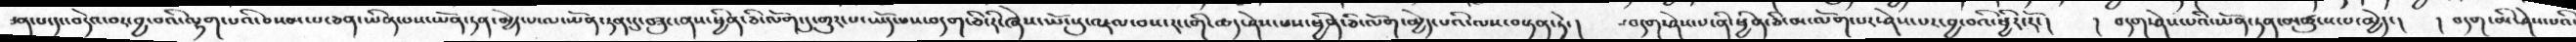ཅན་པ་དང་བདེའ་བར་བྱ་བའི་ལྷག་པའི་སེམས་ཅན་ཡིན་པས་ཡོན་ཏན་མྱེད་པ་ལ་ཡོན་ཏན་དུ་བཟུང་ནས་ཕྱིན་ཅི་ལོག་དུ་གྱུར་པ་ཡོད་པས་བདག་ཅི་རི་ཞེས་ཡོངསུ་འཇལ་བས་རང་གི་ཚད་ཤེས་པས་ཕྱིན་ཅི་ལོག་མྱེད་པའི་ལས་བསྟན་ཏེ་།  བདག་ཤེས་པ་ནི་ཕྱིན་ཅི་ལོག་པར་ཤེས་པར་བྱ་བའི་ཕྱིར་རོ་།   །བདག་ཤེས་པའི་ཡོན་ཏན་མཚུངས་པ་མྱེད་།   ། བདག་མི་ཤེས་པའི་
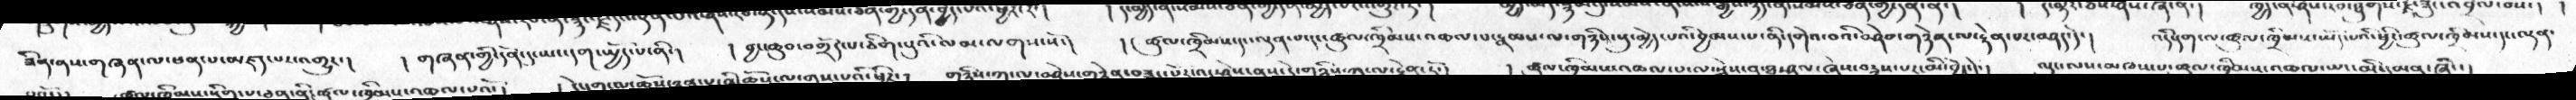ཟིན་ནས་གཞན་ལ་ཕན་པ་མཛད་པར་འགྱུར་།  །གཞན་གྱི་དོན་དུ་ཡང་དག་སྤྱོད་པ་ནི་།   །བྱང་ཆུབ་བགྲོད་པའི་ཅིག་པུའི་ལམ་ལགས་སོ་།  །ཚུལ་ཁྲིམས་དང་ལྡན་པ་དང་ཚུལ་ཁྲིམས་འཆལ་པ་རྣམས་ལ་གཉིས་སུ་མྱེད་པའི་བྱམས་པ་ནི་དགེའ་བའི་བཤེན་གཉེན་ལ་རྟེན་པར་བཤད་དེ་།  འདི་དག་ལ་ཚུལ་ཁྲིམས་ཡོད་པའི་ཕྱིར་ཚུལ་ཁྲིམས་དང་ལྡན་
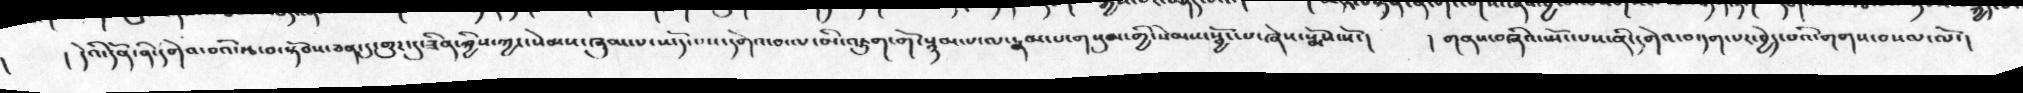།    །དེའི་དོན་ནི་དགེའ་བའི་རྩ་བ་སྟོབས་ཅན་དུ་གྱུར་དུ་ཟིན་ཀྱིས་ཀྱང་སེམས་ཞུམ་པ་ཡོད་པས་དགེའ་བ་ལ་མི་འཇུག་གོ་སྙམ་པ་ལ་རྣམ་པ་གསུམ་གྱི་སེམས་སྦྱོང་པ་ཞེས་སྨོས་སོ་།   །གནས་བཞིའ་སྤོང་པས་ནི་དགེའ་བ་དག་པར་བྱེད་པའི་གགས་བསལ་ལོ་།
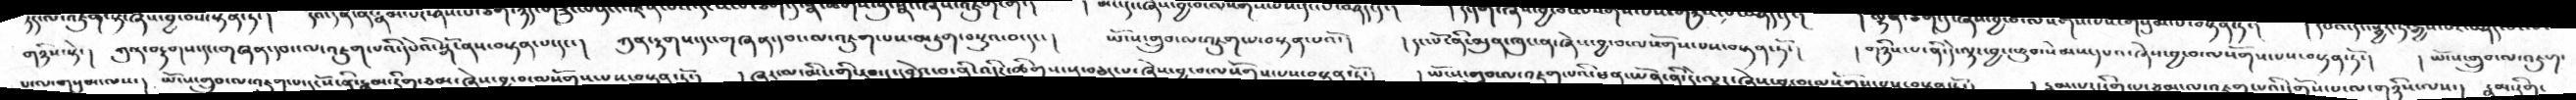གཉིས་སྟེ་།   ཀུན་བརྟགས་དང་གཞན་དབང་ལ་འཇུག་པའི་དཔེའི་སྒོ་ནས་བསྟན་པ་དང་།   ཀུན་རྟགས་དང་གཞན་དབང་ལ་འཇུག་པས་མཇུག་བསྡུའ་བ་དང་།   ཡོངས་གྲུབ་ལ་འཇུག་པ་བསྟན་པའོ་།   །དང་པོ་ནི་མུན་ཁུང་ན་ཞེས་བྱ་བ་ལསོགས་པས་བསྟན་ཏོ་།   །གཉིས་པ་ནི་དེ་ལྟར་བྱང་ཆུབ་སེམས་དཔའ་ཞེས་བྱ་བ་ལསོགས་པས་བསྟན་ཏོ་།   །ཡོངས་གྲུབ་ལ་འཇུག་
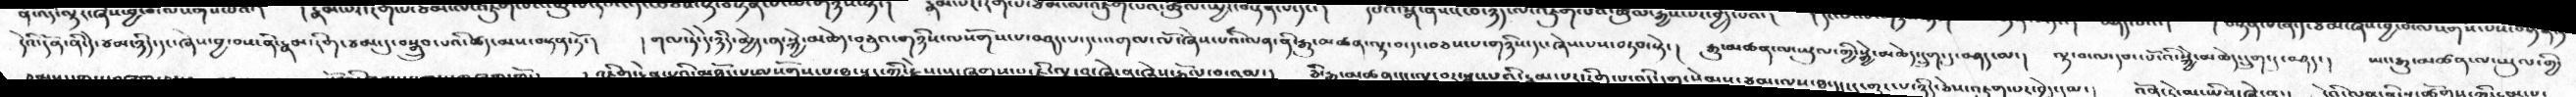དེའི་དོན་ནི་དེ་ཙམ་ཉིད་དང་ཞེས་བྱ་བས་ནི་རྣམ་རིག་ཙམ་དུ་བསྒྲུབ་པའི་ཚད་མས་བསྟན་ཏོ་།   །གལ་ཏེ་དེ་ཉིད་མྱེད་ན་སྐྱེ་མཆེད་བཅུའ་གཉིས་ལསོགས་པ་བཤད་པ་དང་འགལ་ལོ་ཞེས་པའི་ལན་ནི་རྒྱུ་མཚན་ལྟ་བ་དང་བཅས་པ་གཉིས་དང་ཞེས་པས་བཏབ་སྟེ་།   རྒྱུ་མཚན་ལ་ཡུལ་གྱི་སྐྱེ་མཆེད་དྲུག་དུ་བཤད་མ་།   ལྟ་བ་ལ་དབང་པོ་འི་སྐྱེ་མཆེད་དྲུག་དུ་བཤད་།   ཡང་རྒྱུ་མཚན་ལ་ཡུལ་གྱི་
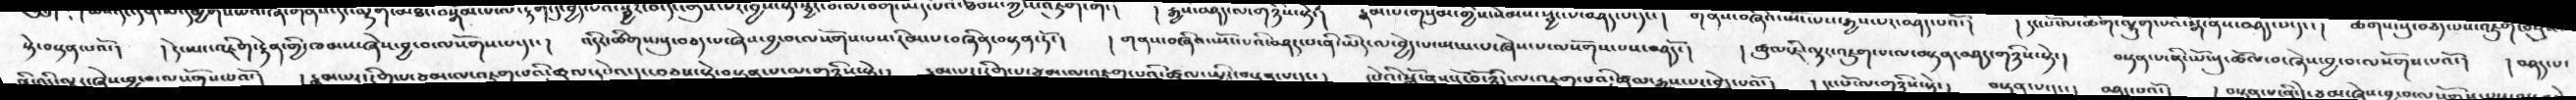སྟེ་བསྟན་པའོ་།  །དེ་ཡང་འཇིག་རྟེན་གྱི་ཁམས་ཞེས་བྱ་བ་ལསོགས་པ་དང་།  འདིར་ཚིགས་སུ་བཅད་པ་ཞེས་བྱ་བ་ལོགས་པས་རིམ་པ་བཞིན་བསྟན་ཏོ་།   །གནས་བཞིའ་སྤོངས་པའི་བཤད་པ་ནི་ཡིད་ལ་བྱེད་པ་སྤངས་པ་ཞེས་པ་ལོགས་པས་བཤདོ་།   །ཚུལ་ཇི་ལྟར་འཇུག་པ་ལ་བསྟན་བཤད་གཉིས་སྟེ་།   བསྟན་པ་ནི་ཡོངསུ་ཚོལ་བ་ཞེས་བྱ་བ་ལོགས་པའོ་།   །བཤད་པ་
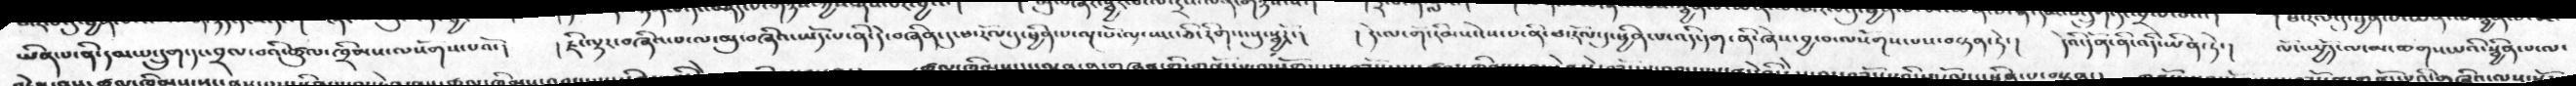ཡིན་པ་ནི་དམ་པ་དྲུག་དང་བྲལ་བའི་ཚུལ་ཁྲིམས་ལསོགས་པའོ་།   །ཇི་ལྟར་བཞིའ་པ་ལ་མུ་བཞིའ་ཡོད་པ་ནི་དེ་བཞིན་དུ་ཕ་རོལ་དུ་ཕྱིན་པ་ལྔ་པོ་ལ་ཡང་ཅི་རིགས་སུ་སྦྱརོ་།   །དེ་ལ་གོ་རིམས་ངེས་པ་ནི་ཕ་རོལ་དུ་ཕྱིན་པ་འདི་དག་ནི་ཞེས་བྱ་བ་ལསོགས་པས་བསྟན་ཏེ་།   དེའི་དོན་ནི་འདི་ཡིན་ཏེ་།   ལོངས་སྤྱོད་ལ་མ་ཆགས་པའི་སྦྱིན་པ་ལ་
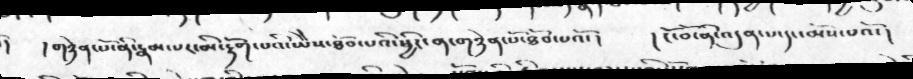དེ    །གཉེན་པོ་ནི་རྣམ་པར་མི་རྟོག་པའི་ཡཻས་ཐོབ་པའི་ཕྱིར་ན་གཉེན་པོ་ཐོབ་པའོ་།   །ངོ་བོ་ནི་འདུན་པ་དང་མོས་པའོ་།
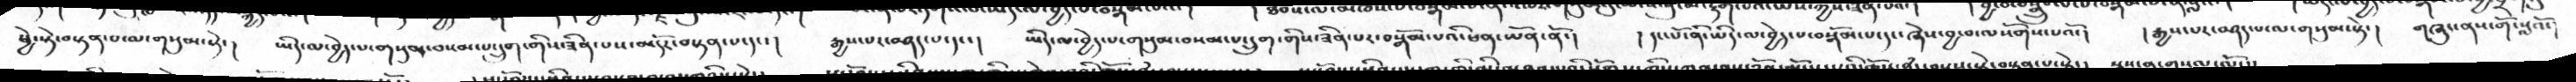ཕྱེ་སྟེ་བསྟན་པ་ལ་གསུམ་སྟེ་།  ཡིད་ལ་བྱེད་པ་གསུམ་བསམ་པ་དྲུག་གིས་ཟིན་པས་མདོར་བསྟན་པ་དང་།  རྒྱས་པར་བཤད་པ་དང་།   ཡིད་ལ་བྱེད་པ་གསུམ་བསམ་པ་དྲུག་གིས་ཟིན་པར་བསྒོམ་པའི་ཕན་ཡོན་ནོ་།   །དང་པོ་ནི་ཡིད་ལ་བྱེད་པ་བསྒོམ་པ་དང་ཞེས་བྱ་བ་ལསོགས་པའོ་།  །རྒྱས་པར་བཤད་པ་ལ་གསུམ་སྟེ་།  གཞུང་ནས་གོ་སླའོ་།
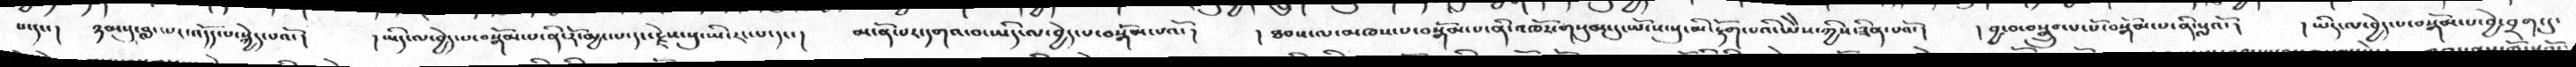པ་དང་།   ཉམསུ་བླང་པར་འདོད་པ་སྐྱེད་པའོ་།   །ཡིད་ལ་བྱེད་པ་བསྒོམ་པ་ནི་རོ་མྱང་པ་དང་རྗེས་སུ་ཡི་རང་པ་དང་།  མངོན་པར་དགའ་བ་ཡིད་ལ་བྱེད་པ་བསྒོམ་པའོ་།   །ཐམས་ལ་མཁས་པ་བསྒོམ་པ་ནི་འཁོར་གསུམ་དུ་ཡོངས་སུ་མི་རྟོག་པའི་ཡཻས་ཀྱིས་ཟིན་པའོ་།   །བྱ་བ་བསྒྲུབ་པ་པོ་བསྒོམ་པ་ནི་སླའོ་།   ཡིད་ལ་བྱེད་པ་བསྒོམ་པ་བྱེ་བྲག་དུ་
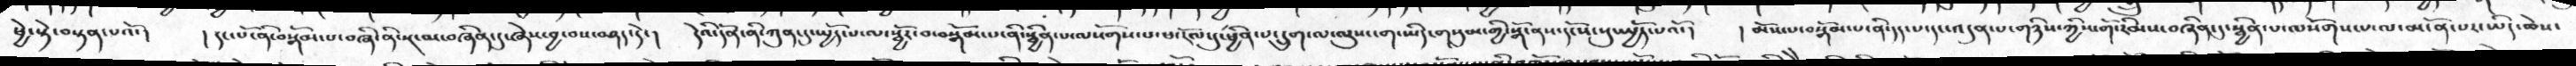ཕྱེ་སྟེ་བསྟན་པའོ་།   །དང་པོ་ནི་བསྒོམ་པ་བཞི་ནི་སྔ་མ་བཞིན་དུ་ཞེས་བྱ་བས་བཤད་དེ་།   དེའི་དོན་ནི་ཀུན་དུ་སྤྱོད་པ་ལ་སྦྱོར་བ་བསྒོམ་པ་ནི་སྦྱིན་པ་ལསོགས་པ་ཕ་རོལ་དུ་ཕྱིན་པ་དྲུག་ལ་ལུས་ངག་ཡིད་གསུམ་གྱི་སྒོ་ནས་དངོས་སུ་སྤྱོད་པའོ་།   །མོས་པ་བསྒོམ་པ་ནི་དད་པ་དང་འདུན་པ་གཉིས་ཀྱིས་གོ་རིམས་བཞིན་དུ་སྦྱིན་པ་ལསོགས་པ་ལ་མངོན་པར་ཡིད་ཆེས་
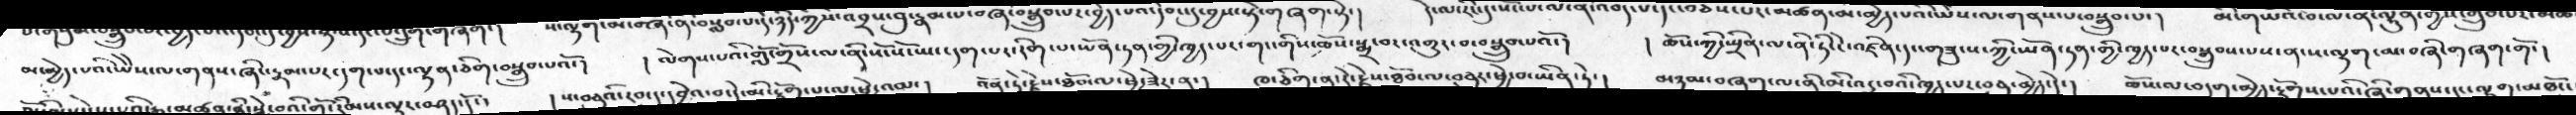མ་མྱེད་པའི་ཡཻས་ལ་གནས་ཞིང་རྣམ་པར་དག་པ་དང་ལྷན་ཅིག་བསྒྲུབ་པའོ་།   །ལེགས་པའི་གློ་གྲོས་ལ་ནི་སོ་སོ་ཡང་དག་པར་རིག་པ་ཡོན་ཏན་གྱི་ཁྱད་པར་གང་གིས་ཆོས་སྨྲ་བར་འགྱུར་བ་བསྒྲུབ་པའོ་།   །ཆོས་ཀྱི་སྤྲིན་ལ་ནི་ཏིང་ངེ་འཛིན་དང་གཟུངས་ཀྱི་ཡོན་ཏན་གྱི་ཁྱད་པར་བསྒྲུབ་པས་ན་ས་ལྷག་མ་བཞི་གཞག་གོ་།
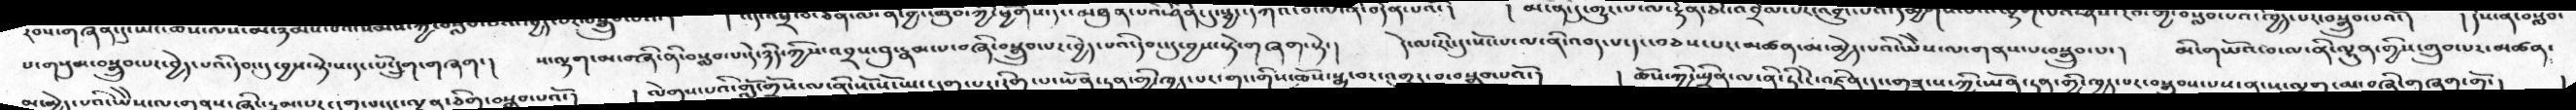ས་གསུམ་བསྒྲུབ་པར་བྱེད་པའི་དབང་དུ་བྱས་སྟེ་ས་དང་པོ་དྲུག་གཞག་།   ས་ལྷག་མ་བཞི་ནི་བསླབ་པ་དེ་ཉིད་ཀྱིས་འབྲས་བུ་རྣམ་པ་བཞི་བསྒྲུབ་པར་བྱེད་པའི་དབང་དུ་བྱས་སྟེ་གཞག་སྟེ་།  དེ་ལ་རིང་དུ་སོང་པ་ལ་ནི་འབད་པ་དང་བཅས་པར་མཚན་མ་མྱེད་པའི་ཡཻས་ལ་གནས་པ་བསྒྲུབ་པ་།   མི་གཡོའ་བ་ལ་ནི་ལྷུན་གྱིས་གྲུབ་པར་མཚན་
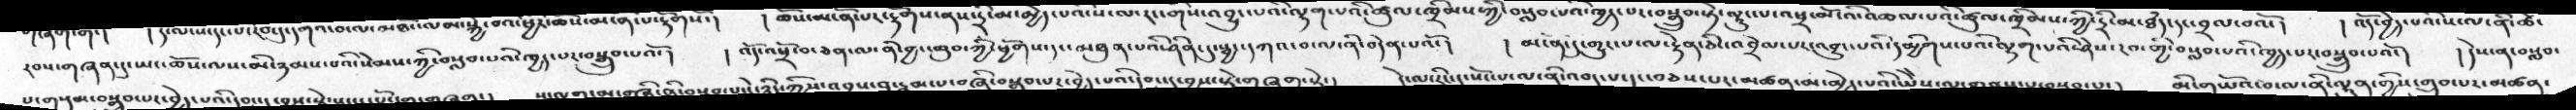རབས་གཞན་དུ་ཡང་ཆོས་ལས་མི་ཉམས་པའི་སེམས་ཀྱི་བསླབ་པའི་ཁྱད་པར་བསྒྲུབ་པའོ་།   །འོད་འཕྲོ་བ་ཅན་ལ་ནི་བྱང་ཆུབ་ཀྱི་ཕྱོགས་དང་མཐུན་པའི་ཤིན་དུ་སྦྱང་དཀའ་བ་ལ་ནི་བདེན་པའོ་།   །མངོན་དུ་གྱུར་པ་ལ་རྟེན་ཅིང་འབྲེལ་པར་འབྱུང་པའི་དམྱིགས་པའི་ལྷག་པའི་ཤེས་རབ་གྱི་བསླབ་པའི་ཁྱད་པར་བསྒྲུབ་པའོ་།   །དེས་ན་བསླབ་
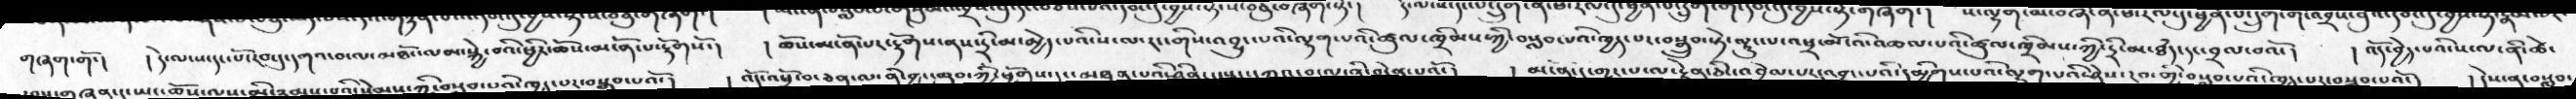གཞག་གོ་།  །དེ་ལ་ས་དང་པོ་རབ་དུ་དགའ་བ་ལ་མཐོང་ལམ་སྐྱེ་བའི་ཕྱིར་ཆོས་མངོན་པ་རྟོགསོ་།  །ཆོས་མངོན་པར་རྟོགས་ནས་དྲི་མ་མྱེད་པའི་ས་ལ་རང་གིས་འབྱུང་པའི་ལྷག་པའི་ཚུལ་ཁྲིམས་ཀྱི་བསླབ་པའི་ཁྱད་པར་བསྒྲུབ་སྟེ་ལྟུང་པ་འཕྲ་མོ་འི་འཆལ་པའི་ཚུལ་ཁྲིམས་དྲི་མ་ཐཾད་དང་བྲལ་བའོ་།   །འོད་བྱེད་པའི་ས་ལ་ནི་ཚེ་
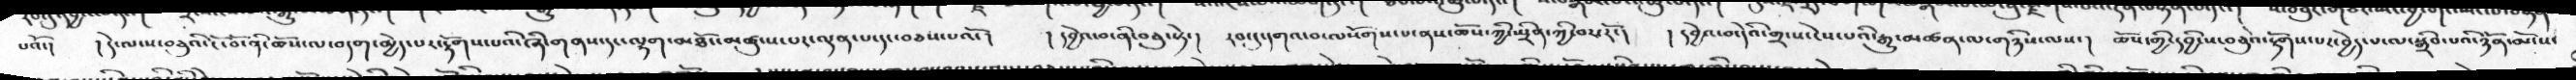པའོ་།  །དེ་ལ་ས་བཅུའི་ངོ་བོ་ནི་ཆོས་ལ་བདག་མྱེད་པར་རྟོགས་པའི་ཞི་གནས་དང་ལྷག་མཐོང་མཚུངས་པར་ལྡན་པ་དང་བཅས་པའོ་།   །དབྱེའ་བ་ནི་བཅུ་སྟེ་།  རབ་ཏུ་དགའ་བ་ལསོགས་པ་ནས་ཆོས་ཀྱི་སྤྲིན་ཀྱི་བར་རོ་།   །དབྱེའ་བ་དེའི་གྲས་ངེས་པའི་རྒྱུ་མཚན་ལ་གཉིས་ལས་།   ཆོས་ཀྱི་དབྱིངས་བཅུའི་རྟོགས་པར་བྱེད་པ་ལ་སྒྲིབ་པའི་ཉོན་མོངས་
